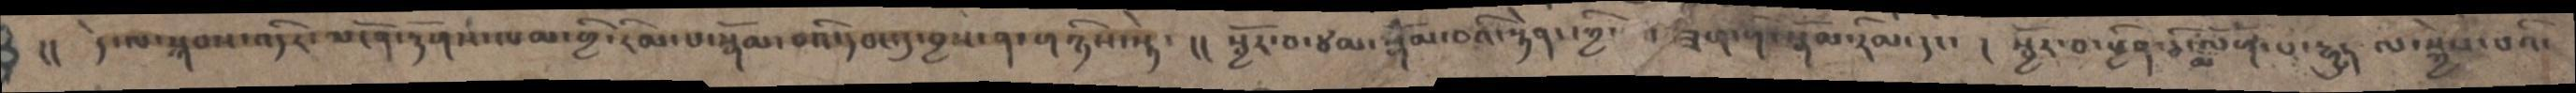།། དེ་ལ་སྐབས་འདིར་མངོན་རྟོགས་ལམ་གྱི་རིམ་པ་སྒོམ་བའི་དབང་དུ་བྱས་ན་གཉིས་སྟེ་ །། སྦྱོར་བ་ཙམ་སྒོམ་བའི་རྟེན་གྱི་གང་ཟག་གི་སྒོམ་རིམ་དང་། སྦྱོར་བ་ཕྱིན་ཅི་མ་ལོག་པ་རྒྱུད་ལ་སྐྱེས་བའི་
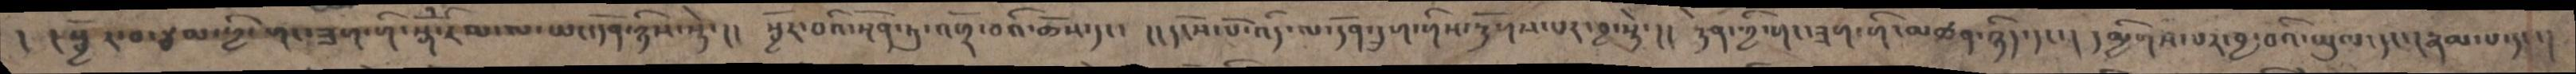། །སྦྱོར་བ་རྩམ་ཕྱི་གང་ཟག་གི་སྒོཾ་རིམ་ལ་ཡང་དོན་ཉིས་སྟེ་།། སྦྱོར་བའི་སྔོན་ཏུ་འགྲོ་བའི་ཆོས་དང་།། དངོས་པོ་འདི་ལ་དོན་དྲུག་གིས་རྟོགས་པར་བྱ་སྟེ་།།  རྟེན་གྱི་གང་ཟག་གི་མཚན་ཉིད་དང་། དམྱིགས་པར་བྱ་བའི་ཡུལ་དང་།རྣམ་པ་དང་།
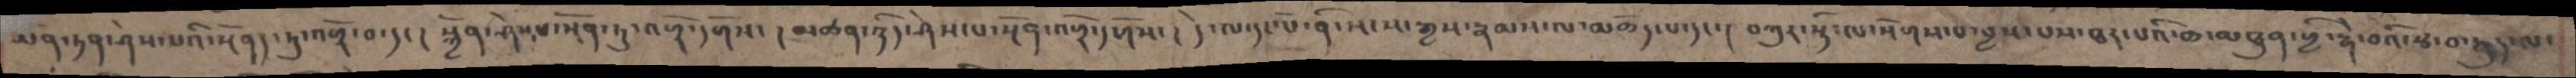ཡོན་ཏན་ཤེས་པའི་སྔོནད་ཏུ་འགྲོ་བ་དང་། སྐྱོན་ཤེས་སྔོན་ཏུ་འགྲོ་དགོས་ །མཚན་ཉིད་ཤེས་པ་སྔོན་འགྲོ་དགོས་ །དེ་ལ་དང་པོ་ནི་སངས་རྒྱས་རྣམས་ལ་མཆོད་པ་དང་། བསྐུར་སྟི་ལ་སོགས་པ་བྱས་པས་ཐར་པའི་ཆ་མཐུན་གྱི་རྒེ་བའི་རྩ་བ་རྒྱུད་ལ་
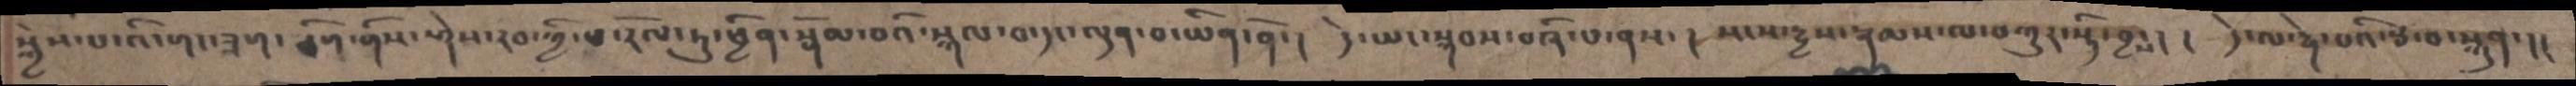སྐྱེས་པ་འི་གང་ཟག་ཅིག་གིས་ཤེས་རབ་ཀྱི་ཕ་རོལ་ཏུ་ཕྱིན་སྒོམ་བའི་སྐལ་བ་དང་ལྡན་བ་ཡིན་ནོ་། དེ་ཡང་སྐབས་བཞི་པ་ནས་། སངས་རྒྱས་རྣམས་ལ་བཀུར་སྟི་བྱས་། །དེ་ལ་རྡེ་བའི་རྩ་བ་སྐྲུན་།།
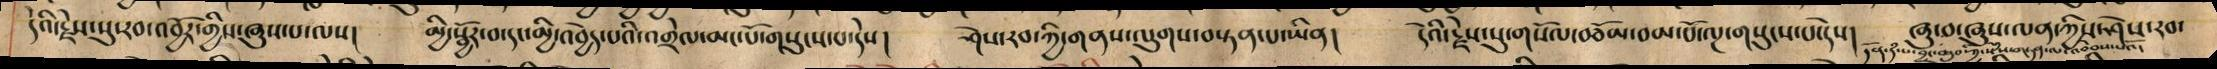དེའི་རྗེས་སུ་རབ་འབྱོར་གྱིས་ཞུས་པ་ལས།  མྱི་སྦྱོར་བ་དང་མྱི་འབྱེདད་པའི་འགྲེལ་མང་པོ་གསུངས་པ་དེས།  ཤེ་རབ་ཀྱི་གནས་ལུགས་བསྟན་པ་ཡིན།   དེའི་རྗེས་སུ་གསོལ་བཅོམ་བམ་པོ་ལྔ་གསུངས་པ་དེས།  ཞུ་བ་ཞུས་ལན་ཀྱིས་ཤེས་རབ་
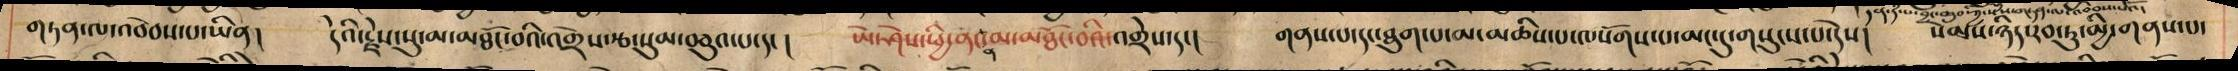གཏན་ལ་འབེབས་པ་ཡིན།  དེའི་རྗེས་སུ་མ་མཐོང་བའི་འགྲོས་རྩ་སུམ་བཅུའ་པ་དངད །  ཡེ་ཤེས་ཕྱི་ནང་མ་མཐོང་བའི་འགྲེས་དང་། གནས་དང་ཐུག་པ་མ་མཆིས་པ་ལསོགས་པ་མང་དུ་གསངས་པ་དེས་།  སེམས་ཉིད་རབ་རུ་མྱི་གནས་
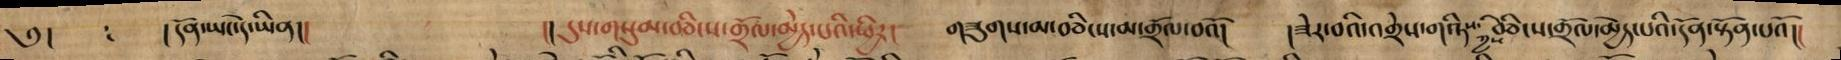༅༅།    ། དོན་ཡང་དེ་ཡིན།།     །།   དུས་གསུམ་བཅིངས་གྲོལ་མྱེད་པའི་ཕྱིར།    གཟུགས་མ་བཅིངས་མ་གྲོལ་བའོ།   ། ཟེར་བའི་འགྲེས་གཉིས་ཀྱིས་བཅིངས་གྲོལ་མྱེད་པའི་དོན་སྟོན་པའོ་།
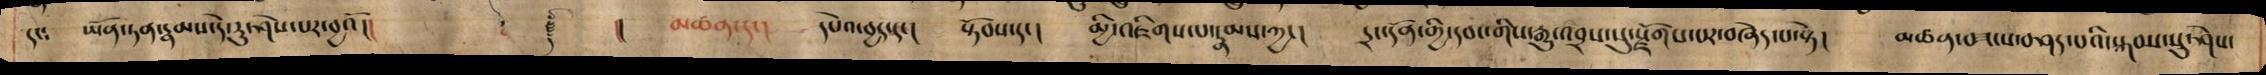དང: ཡོན་ཏན་རྣམས་དེ་རུ་ཤེས་པར་བྱའོ།། ༈ །། མཚན་དང། དཔེའ་བྱད་དང། སྟོབས་དང། མྱི་འཇིགས་པ་རྣམས་ཀྱང། དྲང་དོན་གྱི་དབང་གིས་རྒྱུ་འབྲས་སུ་སྫོགས་པར་བཞེད་པ་སྟེ། མཚན་བཟངས་བཤད་པའི་སྐབས་སུ་ཤེས་
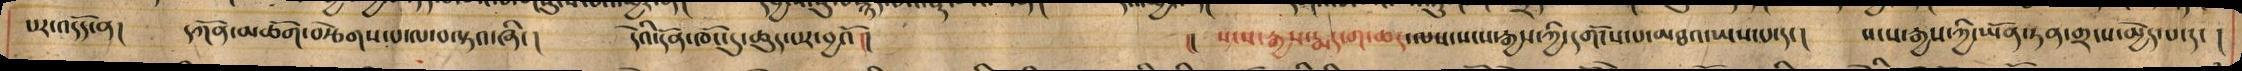པར་འདོད་ན།   དཀོན་མཆོག་བརྩེགས་པ་ལ་བལྟའ་ཞི་།  དེའི་དོན་ཁོང་དུ་ཆུད་པར་བྱའོ་།།       ། སངས་རྒྱས་རྨད་ག་ཆད་ལས་སངས་རྒྱས་ཀྱི་དགོངས་པ་མཐའ་ཡས་པ་དངདད་།    སངས་རྒྱས་ཀྱི་ཡོན་ཏན་གྲངས་མྱེད་པ་དང་ །
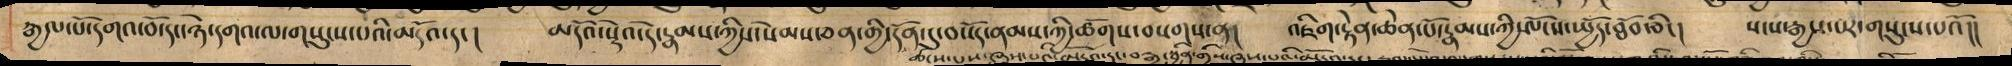རྒྱལ་པོ་དགའ་བ་དང་ཉེ་དགའ་ལ་གསུངས་པའི་མདོའ་དང་།   མདོའ་སྡེའ་དེ་རྣམས་ཀྱིས་སེམས་ཅན་གྱི་དོན་དུ་བསོད་ནམས་ཀྱི་ཚོགས་བསགས་ན།  འཇིག་རྟེན་ཆེན་པོ་རྣམས་ཀྱི་ལོངས་ཡྱོད་ཐོབ་ཅིང།  སངས་རྒྱས་པར་གསུངས་པའོ།།
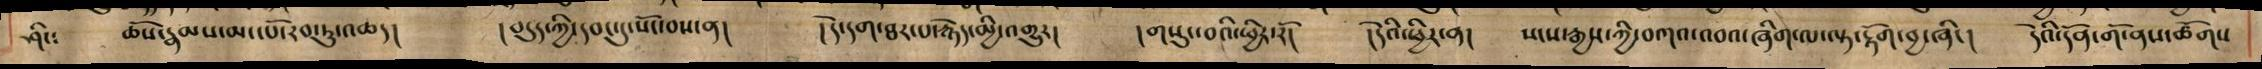ཤིང: ཆོས་རྣམས་མང་པོ་རབ་ཏུ་འཆད། །བདུད་ཀྱི་དབང་དུ་སོང་བས་ན། །དེ་དག་ཐར་པ་རྙེད་མྱི་འགྱུར། །གསུང་བའི་ཕྱིར་རོ། །དེའི་ཕྱིར་ན། སངས་རྒྱས་ཀྱི་བཀའ་འབའ་ཞིག་ལ་ལྟ་རྟོག་བྱ་ཞིང། དེའི་དོན་གོ་ནས་ཚོགས
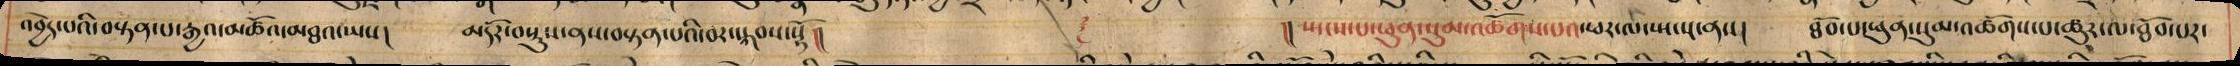འབྱེད་པའི་བསྟན་པ་རྒྱའ་མཚོའ་མཐའ་ཡས། མདོར་བསྡུས་ནས་བསྟན་པའི་བར་སྐབས་སོ །། ༈ །། ཡངས་པ་ཕུན་སུམ་འཚོགས་པའ་ཕར་ལ་ཡངས་ནས། ཐོབ་པ་ཕུན་སུམ་འཚོགས་པ་ཚུར་ལ་ཐོབ་པར་
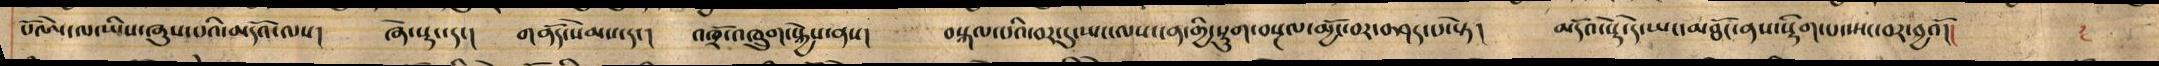པོའེལ་ལ་ཡིས་ཞུས་པའི་མདོའ་ལས།   ཞེ་སྡང་དངད་།    གནོད་སེམས་དང་།   འཁོང་འཁྲུག་སྐྱེས་ནས།   བསྐལ་པའི་བར་དུ་ཡང་ལས་ངན་གྱི་སྡུག་བསྔལ་མྱོང་བར་བཤད་པ་ཏེ།    མདོའ་སྡེ་དེ་ཡང་མཐོང་ནས་སྡུག་པ་སྤང་བར་བྱའོ།།
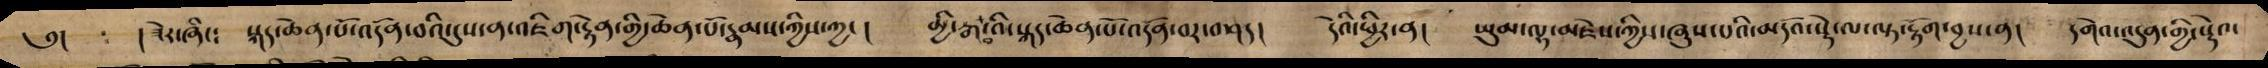༅།     ། ཟེར་ཞིང༴  སྐད་ཆེན་པོ་འདོན་བའི་དུས་ན་འཇིག་རྟེན་གྱི་ཆེན་པོ་རྣམས་ཀྱི་ཀྱང།   མྱི་རྒ་བའི་སྐད་ཆེན་པོ་འདོན་བར་བཤད།  དེའི་ཕྱིར་ན།   ཡུམ་ལྷ་མཛེས་ཀྱིས་ཞུས་པའི་མདོའ་སྡེ་ལ་ལྟ་རྟོག་བྱས་ན།  དགེའ་འདུན་གྱི་སྡེའ་
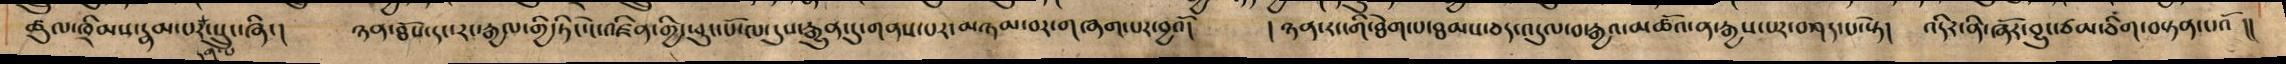ཚུལ་ཁྲིམས་རྣམ་པར་དག་པ་སྲུང་ཞིང།   ཉན་ཐོས་དང་རང་རྒྱལ་གྱི་ཏིང་ངེ་འཛིན་གྱི་ཕུང་པོ་ལ་དུས་རྒྱུན་དུ་གནས་པར་མཉམ་པར་གཞག་པར་བྱའོ་།   ། ཉན་རང་གི་ཐེག་པ་ཐམས་ཅད་འདུལ་བ་རྒྱའ་མཚོའ་ན་རྒྱས་པར་བཤད་པ་སྟེ།   འདིར་ནི་ཞར་བྱུང་ཙམ་ཅིག་བསྟན་པའོ །།
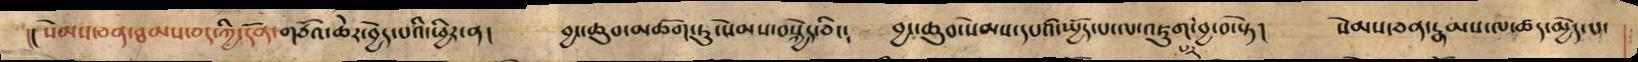།།  སེམས་ཅན་ཐམས་ཅད་ཀྱི་དོན་གཙོའ་ཆེར་བྱེད་པའི་ཕྱིར་ན།   བྱང་ཆུབ་མཆོག་ཏུ་སེམས་བསྐྱེད་ཅིང༴   བྱང་ཆུབ་སེམས་དཔའི་ཡྱོད་པ་ལ་འཇུག་པར་བྱ་བ་སྟེ།   སེམས་ཅན་རྣམས་ལ་ཚད་མྱེད་པ་
